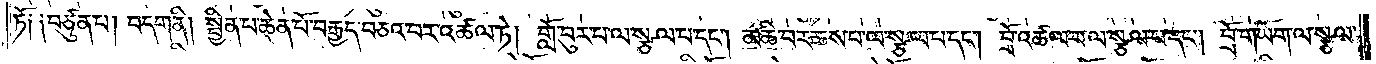ཏོ། །བཙུན་པ། བདག་ནི། སྦྱིན་པ་ཆེན་པོ་བརྒྱད་བཅའ་བར་འཚལ་ཏེ། གློ་བུར་པ་ལ་སྩལ་པ་དང༌། མཆི་བར་ཆས་པ་ལ་སྩལ་པ་དང༌། བྲོ་འཚལ་བ་ལ་སྩལ་པ་དང༌། བྲོ་གཡོག་ལ་སྩལ་
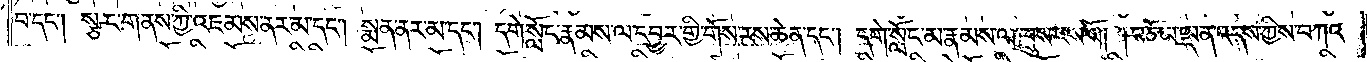བ་དང༌། སྩང་གནས་ཀྱི་འཇམས་ནར་མ་དང༌། སྨན་ནར་མ་དང༌། དགེ་སློང་རྣམས་ལ་དབྱར་གྱི་གོས་རས་ཆེན་དང༌། དགེ་སློང་མ་རྣམས་ལ་ཁྲུས་རས་སོ། །བཅོམ་ལྡན་འདས་ཀྱིས་བཀའ་
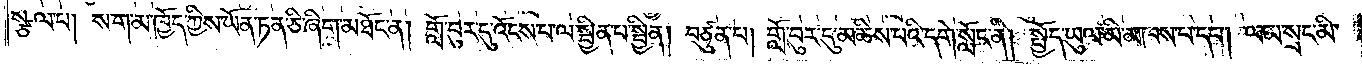སྩལ་པ། ས་ག་མ་ཁྱོད་ཀྱིས་ཡོན་ཏན་ཅི་ཞིག་མཐོང་ན། གློ་བུར་དུ་འོངས་པ་ལ་སྦྱིན་པ་སྦྱིན། བཙུན་པ། གློ་བུར་དུ་མཆིས་པའི་དགེ་སློང་ནི། སྤྱོད་ཡུལ་མི་མཁས་པ་དང༌། ལམ་སྲང་མི་
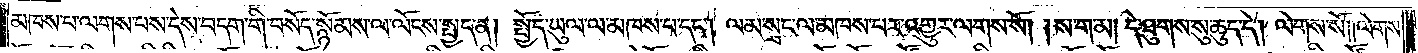མཁས་པ་ལགས་པས་དེས་བདག་གི་བསོད་སྙོམས་ལ་ལོངས་སྤྱད་ན། སྤྱོད་ཡུལ་ལ་མཁས་པ་དང༌། ལམ་སྲང་ལ་མཁས་པར་འགྱུར་ལགས་སོ། །ས་ག་མ། དེ་ཐུགས་སུ་ཆུད་དེ། ལེགས་སོ༎ལེགས་
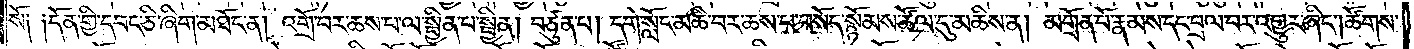སོ༑ ༑དོན་གྱི་དབང་ཅི་ཞིག་མཐོང་ན། འགྲོ་བར་ཆས་པ་ལ་སྦྱིན་པ་སྦྱིན། བཙུན་པ། དགེ་སློང་མཆི་བར་ཆས་པ་བསོད་སྙོམས་ཚོལ་དུ་མཆིས་ན། མགྲོན་པོ་རྣམས་དང་བྲལ་བར་འགྱུར་ཞིང༌། ཚོགས་
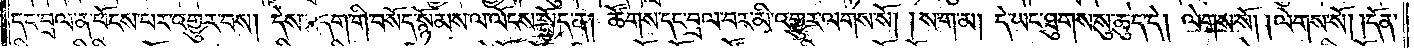དང་བྲལ་ན་ཕོངས་པར་འགྱུར་བས། དེས་བདག་གི་བསོད་སྙོམས་ལ་ལོངས་སྤྱོད་ན། ཚོགས་དང་བྲལ་བར་མི་འགྱུར་ལགས་སོ། །ས་ག་མ། དེ་ཡང་ཐུགས་སུ་ཆུད་དེ། ལེགས་སོ། །ལེགས་སོ། །དོན་
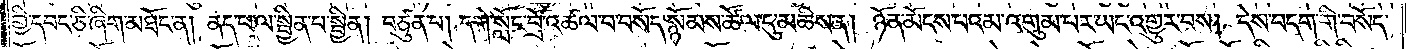གྱི་དབང་ཅི་ཞིག་མཐོང་ན། ནད་པ་ལ་སྦྱིན་པ་སྦྱིན། བཙུན་པ། དགེ་སློང་བྲོ་འཚལ་བ་བསོད་སྙོམས་ཚོལ་དུ་མཆིས་ན། ཉོན་མོངས་པའམ་འགུམ་པར་ཡང་འགྱུར་བས། དེས་བདག་གི་བསོད་
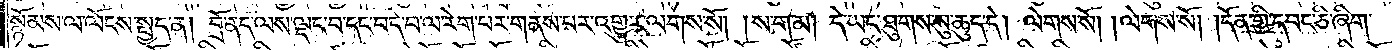སྙོམས་ལ་ལོངས་སྤྱད་ན། བྲོ་ནད་ལས་ལྡང་བ་དང་བདེ་བ་ལ་རེག་པར་གནས་པར་འགྱུར་ལགས་སོ། །ས་ག་མ། དེ་ཡང་ཐུགས་སུ་ཆུད་དེ། ལེགས་སོ། །ལེགས་སོ། །དོན་གྱི་དབང་ཅི་ཞིག་
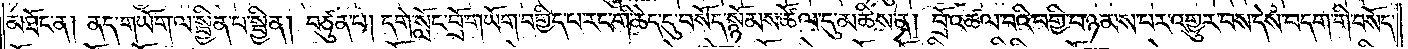མཐོང་ན། ནད་གཡོག་ལ་སྦྱིན་པ་སྦྱིན། བཙུན་པ། དགེ་སློང་བྲོ་གཡོག་བགྱིད་པ་རང་གི་ཆེད་དུ་བསོད་སྙོམས་ཚོལ་དུ་མཆིས་ན། བྲོ་འཚལ་བའི་བགྱི་བ་ཉམས་པར་འགྱུར་བས་དེས་བདག་གི་བསོད་
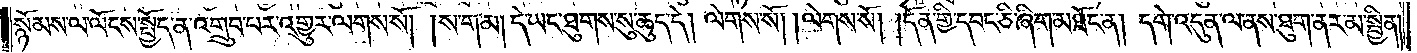སྙོམས་ལ་ལོངས་སྤྱོད་ན་འགྲུབ་པར་འགྱུར་ལགས་སོ། །ས་ག་མ། དེ་ཡང་ཐུགས་སུ་ཆུད་དེ། ལེགས་སོ། །ལེགས་སོ། །དོན་གྱི་དབང་ཅི་ཞིག་མཐོང་ན། དགེ་འདུན་ལ་ནས་ཐུག་ནར་མ་སྦྱིན།
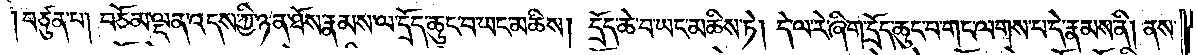བཙུན་པ། བཅོམ་ལྡན་འདས་ཀྱི་ཉན་ཐོས་རྣམས་ལ་དྲོད་ཆུང་བ་ཡང་མཆིས། དྲོད་ཆེ་བ་ཡང་མཆིས་ཏེ། དེ་ལ་རེ་ཞིག་དྲོད་ཆུང་བ་གང་ལགས་པ་དེ་རྣམས་ནི། ནས་
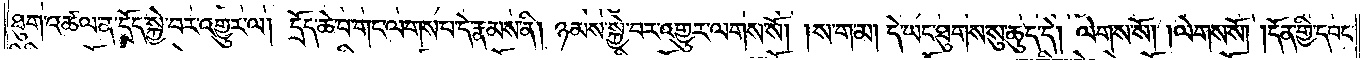ཐུག་འཚལ་ན་དྲོད་སྐྱེ་བར་འགྱུར་ལ། དྲོད་ཆེ་བ་གང་ལགས་པ་དེ་རྣམས་ནི། ཉམས་སྐྱེ་བར་འགྱུར་ལགས་སོ། །ས་ག་མ། དེ་ཡང་ཐུགས་སུ་ཆུད་དེ། ལེགས་སོ། །ལེགས་སོ། །དོན་གྱི་དབང་
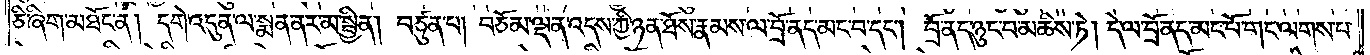ཅི་ཞིག་མཐོང་ན། དགེ་འདུན་ལ་སྨན་ནར་མ་སྦྱིན། བཙུན་པ། བཅོམ་ལྡན་འདས་ཀྱི་ཉན་ཐོས་རྣམས་ལ་བྲོ་ནད་མང་བ་དང༌། བྲོ་ནད་ཉུང་བ་མཆིས་ཏེ། དེ་ལ་བྲོ་ནད་མང་པོ་གང་ལགས་པ་
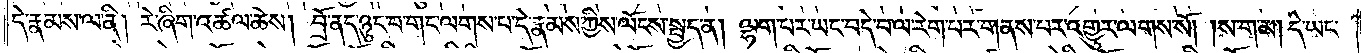དེ་རྣམས་ལ་ནི། རེ་ཞིག་འཚལ་ཆེས། བྲོ་ནད་ཉུང་བ་གང་ལགས་པ་དེ་རྣམས་ཀྱིས་ལོངས་སྤྱད་ན། ལྷག་པར་ཡང་བདེ་བ་ལ་རེག་པར་གནས་པར་འགྱུར་ལགས་སོ། །ས་ག་མ། དེ་ཡང་
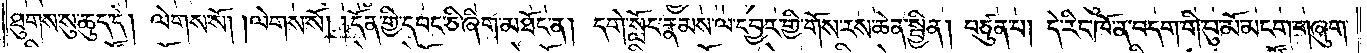ཐུགས་སུ་ཆུད་དེ། ལེགས་སོ། །ལེགས་སོ། །དོན་གྱི་དབང་ཅི་ཞིག་མཐོང་ན། དགེ་སློང་རྣམས་ལ་དབྱར་གྱི་གོས་རས་ཆེན་སྦྱིན། བཙུན་པ། དེ་རིང་ཁོ་ན་བདག་གི་བུ་མོ་མངག་གཞུག་
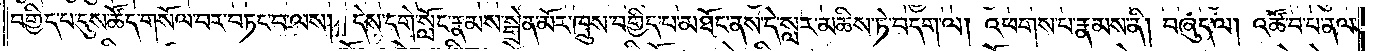བགྱིད་པ་དུས་ཚོད་གསོལ་བར་བཏང་བ་ལས། དེས་དགེ་སློང་རྣམས་སྒྲེན་མོར་ཁྲུས་བགྱིད་པ་མཐོང་ནས་དེ་སླར་མཆིས་ཏེ་བདག་ལ། འཕགས་པ་རྣམས་ནི། བཞུད་ལ། འཚོ་བ་པ་ནལ་
